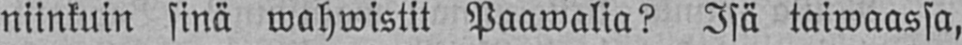niinkuin sinä wahwistit Paawalia? Isä taiwaassa,
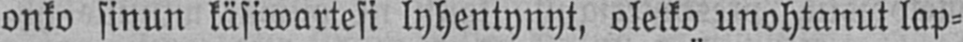onko sinun käsiwartesi lyhentynyt, oletko unohtanut lap-
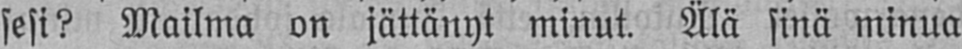sesi? Mailma on jättänyt minut. Älä sinä minua
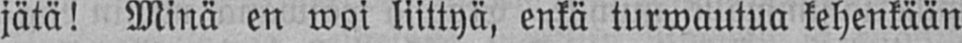jätä! Minä en woi liittyä, enkä turwautua kehenkään
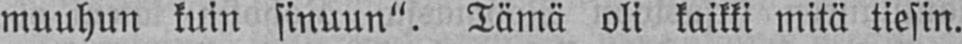muuhun kuin sinuun". Tämä oli kaikki mitä tiesin.
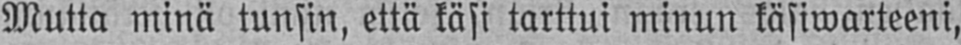Mutta minä tunsin, että käsi tarttui minun käsiwarteeni,
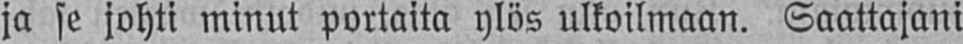ja se johti minut portaita ylös ulkoilmaan. Saattajani
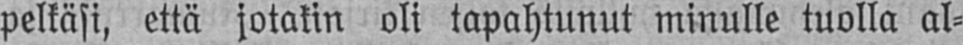pelkäsi, että jotakin oli tapahtunut minulle tuolla al-
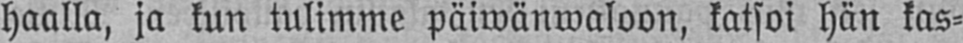haalla, ja kun tulimme päiwänwaloon, katsoi hän kas-
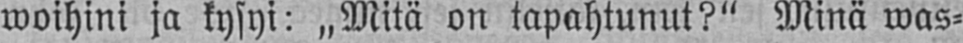woihini ja kysyi: „Mitä on tapahtunut?" Minä was-
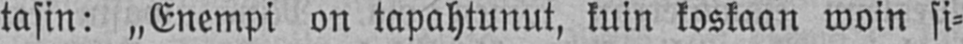tasin: „Enempi on tapahtunut, kuin koskaan woin si-
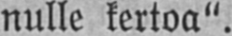nulle kertoa".
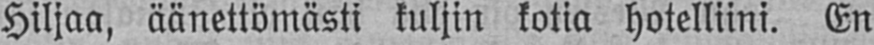Hiljaa, äänettömästi kuljin kotia hotelliini. En
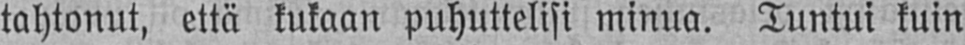tahtonut, että kukaan puhuttelisi minua. Tuntui kuin
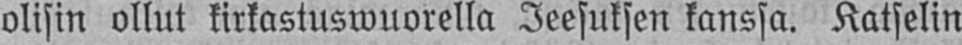olisin ollut kirkastuswuorella Jeesuksen kanssa. Katselin
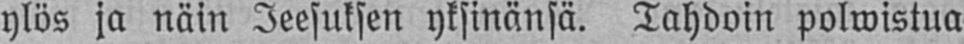ylös ja näin Jeesuksen yksinänsä. Tahdoin polwistua
